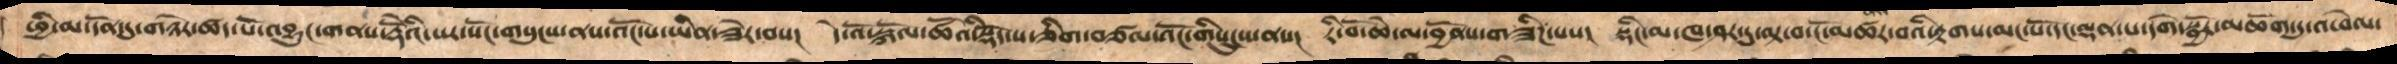ཕྱི་མ་དོན་དུ་གཉེར་ཚད་པོ་འབྱུང་གནས་རྡོེའི་སར་སོང་གསུངས་ནས་འོང་པ་ཡིན་ཟེར་བས། ད་འོ་སྐོལ་ཚོའི་སྡོད་ས་ཅིག་བཙལ་འོང་གིསུངས་ནས།  རི་བོ་ཆེ་ལ་བྱོནས་གཟིཌ་པས།  སྡིང་མ་ཁ་ཤར་དུ་ལྟ་བ་ངོ་མཚར་བའི་རྟགས་མང་པོ་དང་ལྡན་པ་དགེ་སྦྱོར་མཆོག་དུ་འཕེལ་
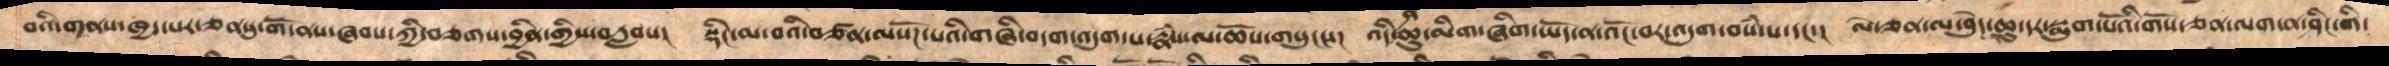བའི་གནས་ཁྱད་པར་ཅནསུ་གོ་ནས་ཞབས་ཀྱི་བཅགས་བྱིན་གྱིས་བརླབས། སྡིང་མ་བའི་བཙན་ལསོཌ་པའི་གཞི་བདག་འདུག་པ་རྣཾས་ལ་ཆོས་གསུངས། འདི་ན་ཆུ་མིག་ཞིག་ཡོད་ན་འོང་བར་འདུག་བསཾ་པ་དང་། ལེ་ཅན་ལ་བེུད་ཆུ་དར་སྨུག་པོའི་གོས་ཅན་ལག་ན་ཤིང་གི་
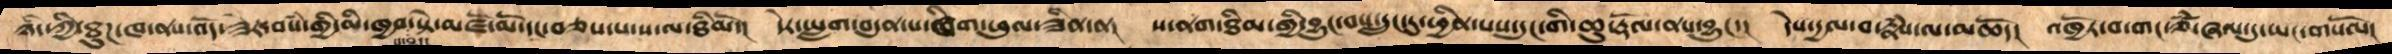ཉིད་ཀྱི་ཐུཌ་ཁ་ནས་འོད་ཟེར་བསཾ་གྱི་མི་ཁྱབ་པ་བྱུང་སྟེ་མཛོ་མོ་དང་བཅས་པ་ས་ལ་ཐིམོ། དེར་ཡླག་བདུན་པ་ཞིག་ཕུལ་ཟིན་ན། ས་ནག་ཐིམ་གྱི་བྱུང་བས་དྲུང་དུ་ཕྱིན་པས་དུང་གི་ཆུ་རྡོལ་ནས་བྱུང་། དེས་དྱལ་བ་རྣཾས་ལ་མཆོད། འཁྱོར་བ་གང་ཙཾ་ཞལ་དུ་ཡང་གསོལ།
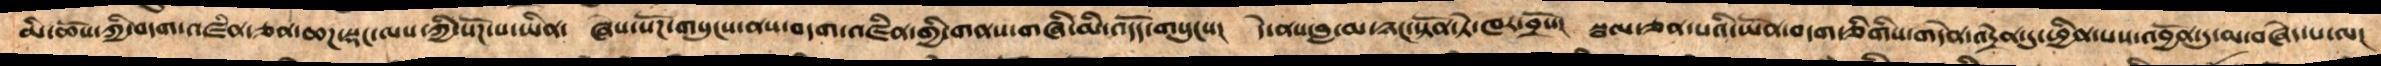མི་ཆོས་ཀྱི་བདག་འཛིན་ཅན་ཆཌ་སྡང་ལས་ཀྱི་སོཌ་ས་ཡིན།  ཞེས་སོཌ་གསུངས་ནས་བདག་འཛིན་གྱི་གནས་གཞི་མི་འདོད་གསུངས།  དེ་ནས་བླ་མ་ཉང་སྟོན་ཏེ་ཁར་བྲོས།  སྦལ་ཅན་པའི་ཡོན་བདག་ཅིགིས་གདེན་འདྲེན་དུ་ཕྱིན་པས་འབྱོན་དུ་མ་བཞེད་པ་ལ།
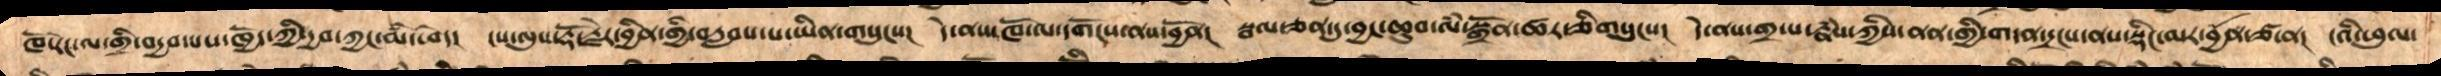ཁོ་རང་ལ་གྲི་བདྱབ་པས་ཁྱོད་ཀྱི་དྱབ་ཀྱང་མི་ཕེད།  ངས་ལུས་རྡོ་རྗེར་བྱིན་གྱི་བརླབས་པ་ཡིན་གསུངས།  དེ་ནས་ཁོ་ལ་དགོངས་ནས་བྱོན།  སྦལ་ཅན་དུ་བྱང་ཆུབ་ལཾ་སྒྲོན་ཚར་ཅིག་གསུངས།  དེ་ནས་གྲ་པ་རྣཾས་ཀྱིས་ནན་གྱི་གདན་དྲངས་ནས་སྡིང་མར་བྱོན་ཙ་ན།  ངའི་ཕུལ་
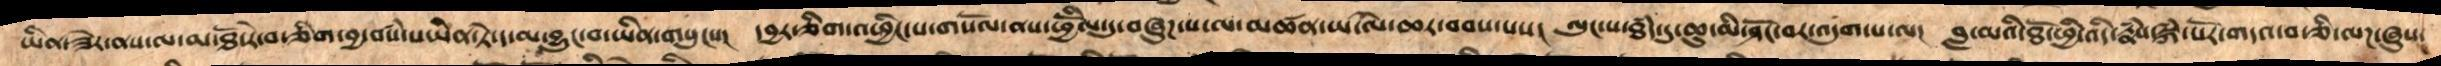ཡིན་ཟེར་ནས་ལ་མ་ཐོ་རེ་བ་ཅིག་བྱ་བསཾ་པ་ཡིན་ཏེ་ད་མ་བྱུང་བ་ཡིན་གསུངས།  དབྱར་ཅིག་འཕྱིང་པ་གསོལ་ནས་ཕྱིོལ་དུ་བཞུཌ་པ་ལ་མཚན་ཡ་ལེ་ཆར་བབས་པས།  ལུང་པ་ཐཾད་དུ་ཆུ་མི་ཤོང་བར་འདུག་པ་ལ།  བླ་མའི་ཐོ་ཕྱི་འདི་རྣཾས་སྐཾ་པོར་གདའ་བ་ཅི་ལཌ་ཞུས་
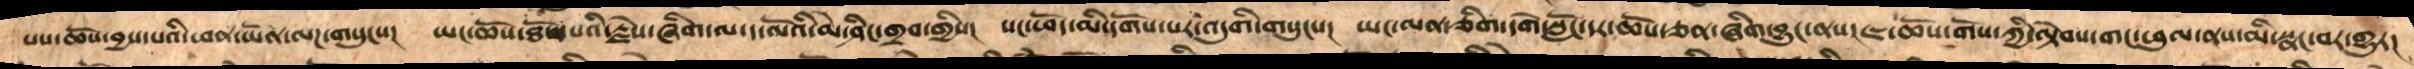པས་ཆོས་བྱས་པའི་ཕན་ཡོན་ལཌ་གསུངས།  ཡང་ཆོས་ཐོས་པའི་རྗེས་ཞིག་ལ་ད་ལོའི་མེ་ཤིང་གྲབ་གྱིས།  སང་ཕོད་མི་དགོས་པར་འདུགི་གསུངས།  ཡང་ལན་ཅིག་དགེ་སློང་དར་ཆོས་ཅན་ཞིག་བྱུང་ནས་ཇ་ཆོས་གོས་ཀྱི་ལྟེབས་གང་ཕུལ་ནས་མི་སྣང་བར་གྱུར།
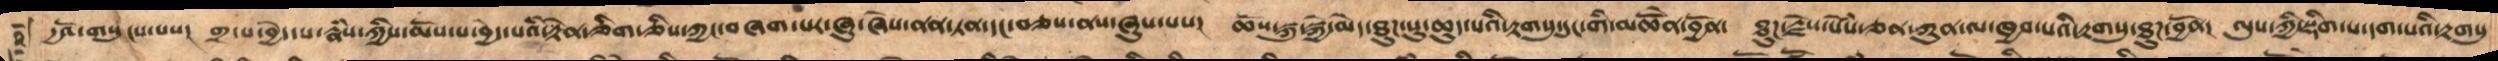དྱའོ་གསུངས་པས།  གྲ་པ་བྱེད་པ་རྣཾས་ཀྱིས་མོས་པ་བྱེད་པའི་རྟེན་ཅིག་ཅིས་ཀྱང་བཞག་པར་ཞུ་ཞེས་ནན་ཏན་དང་བཅས་ནས་ཞུས་པས། ཆོས་སྐུ་སྐྱེ་མེད་ཐུཌ་སུ་ཆུད་པའི་རྟགསུ་དུང་གི་མཆོེན་བྱོན། ཐུཌ་རྗེས་སེཾས་ཅན་ཀུན་ལ་ཁྱབ་པའི་རྟགསུ་ཐུཌ་བྱོན། ལུས་ཀྱི་སྡིག་པ་དག་པའི་རྟགསུ
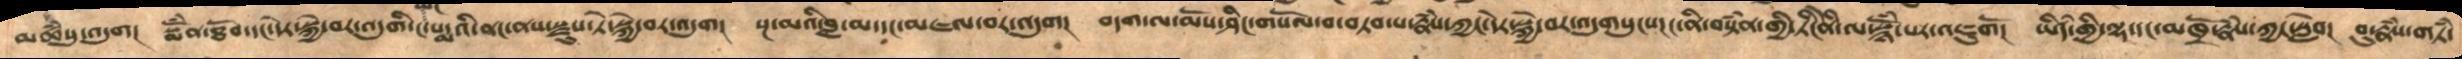མཚཾསུ་འདུག  སྨོཾན་ཐོབ་དང་དེར་སྐྱེ་བར་འདུགི་ང་ཡང་པདྨའི་ནང་ནས་སྫུས་ཏེ་སྐྱེ་བར་འདུག།  སྔ་མའི་བླ་མ་དང་མཇལ་བར་འདུག། བདག་ལ་མོས་ཤིང་གསོལ་བ་བཏབ་པ་རྣཾས་ཀྱང་དེར་སྐྱེ་བར་འདུགསུངས།  ང་ནི་བསྟཾན་གྱི་ཏིངེཛིན་ལ་སྙོཾས་པར་འཇུགོ། ཡིདཾ་གྱི་ལྷ་དང་མཁྲོ་རྣཾས་ཀྱང་སླེབ། བུ་རྣཾས་གཏཾ་
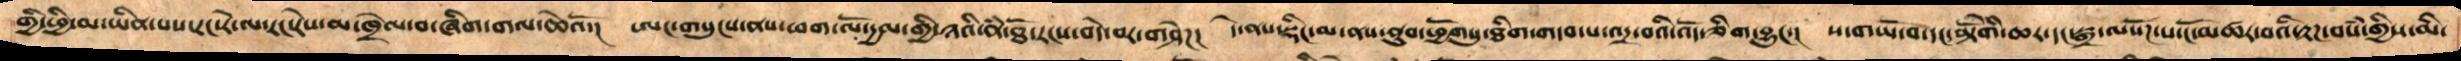གྱི་ཕྱི་མ་ཡིན་པས་རང་རེ་ལ་རང་རེས་མ་ཁྲེལ་བ་ཞིག་གལ་ཆེའོ། ཨང་གསུངས་ནས་ཕག་ལོ་དྱལ་གྱི་ཉའི་ནཾ་ཐོ་རངས་བདེ་བར་གཤེཌ།  དེ་ནས་སྡིང་མ་ནས་ནུབ་ཕྱོགསུ་ཐིག་གདབ་པ་འདྲ་བའི་འོད་ཅིག་བྱུང་།  ས་གཡོ་བ་དང་མྟེོགི་ཆར་དང་སྒྲ་ལསོཌ་པ་ངོ་མཚར་བའི་རྟཌ་བསཾ་གྱིས་མི་
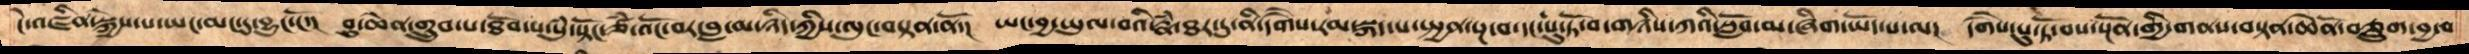ངེ་འཛིན་སྐྱེས་པ་ཡང་མང་དུ་བྱུང་ངོ་།  བུ་ཆེན་གྲུབ་པ་ཐོབ་པ་སུཾ་སྟོང་ཙཾ་འོང་བར་བླ་མ་ཉིད་ཀྱིས་ལུང་བསྟན་ནོ།  ཡང་བྱ་ཡུལ་བའི་རྣཾ་ཐར་དུ་ནི་དགཻས་རམ་སྐད་པ་སྤྱན་སྔ་བ་དང་པུ་ཏོ་བ་གཉིས་ཀའི་སློབ་མ་ཞིག་ཡོད་པ་ལ།  དགཻས་པུ་ཏོ་བས་སྔོན་གྱི་གནས་བསྟན་ཆེནོ་བཅྲུག་བྱ་བ
